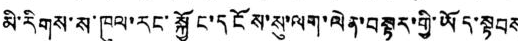མི་རིགས་ས་ཁུལ་རང་སྐྱོང་དངོས་སུ་ལག་ལེན་བསྟར་གྱི་ཡོད་སྟབས
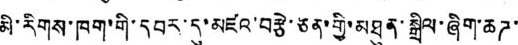མི་རིགས་ཁག་གི་དབར་དུ་མཛའ་བརྩེ་ཅན་གྱི་མཐུན་སྒྲིལ་ཞིག་ཆཌ་
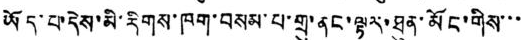ཡོད་པ་དེས་མི་རིགས་ཁག་བསམ་པ་གྲུ་ནང་ལྟར་ཐུན་མོང་གིས་་་
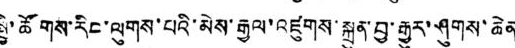སྤྱི་ཚོགས་རིག་ལུགས་པའི་མེས་རྒྱལ་འཛུགས་སྐྲུན་བྱ་རྒྱུར་ཤུགས་ཆེན
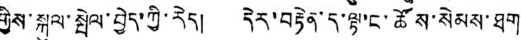གྱིས་སྐུལ་སྤེལ་བྱེད་ཀྱི་རེད། དེར་བརྟེན་ད་ལྟ་ང་ཚོས་སེམས་ཐག
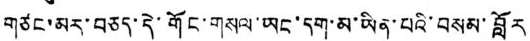གཙང་མར་བཅན་དེ་གོང་གསལ་ཡང་དག་མ་ཡིན་པའི་བསམ་བློར
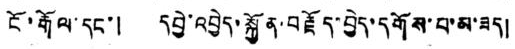ངོ་རྒོལ་དང་། དབྱེ་འབྱེད་སྐྱོན་བརྗོད་བྱེད་དགོས་པ་མ་ཟད།
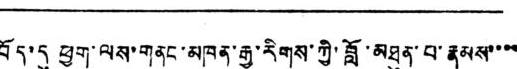བོད་དུ ཕྱག་ལས་གནང་མཁན་རྒྱ་རིགས་ཀྱི་བློ་མཐུན་པ་རྣམས་་་་་
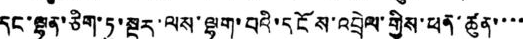དང་ལྷན་ཅིག་ཏུ་སྔར་ལས་ལྷག་པའི་དངོས་འབྲེལ་གྱིས་ཕན་ཚུན་་་་
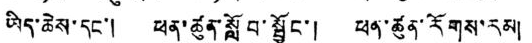ཡིད་ཆེས་དང་། ཕན་ཚུན་སློབ་སྦྱོང་། ཕན་ཚུན་རོགས་རམ།
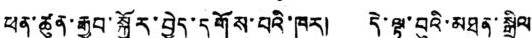ཕན་ཚུན་རྒྱབ་སྐྱོར་བྱེད་དགོས་པའི་ཁར། དེ་ལྟར་བུའི་མཐུན་སྒྲིལ
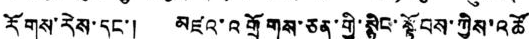རོགས་རེས་དང་། མཛའ་འགྲོགས་ཅན་གྱི་སྙིང་སྟོབས་ཀྱིས་འཚོ
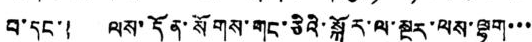བ་དང་། ལས་དོན་སོགས་གང་ཅིའི་སྐོར་ལ་སྔར་ལས་ལྷག་་་
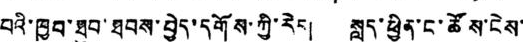པའི་ཁྱབ་ཐུབ་ཐབས་བྱེད་དགོས་ཀྱི་རེད། སླད་ཕྱིན་ང་ཚོས་ངེས་
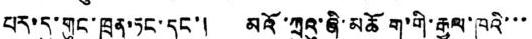པར་དུ་གུང་ཁྲན་ཏང་དང་། མའོ་ཀྲུའུ་ཞི་མཆོག་གི་རྒྱལ་ཁའི་་་
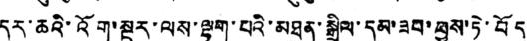དར་ཆའི་འོག་སྔར་ལས་ལྷག་པའི་མཐུན་སྒྲིལ་དམ་ཟབ་ཕྱས་ཏེ་བོད
